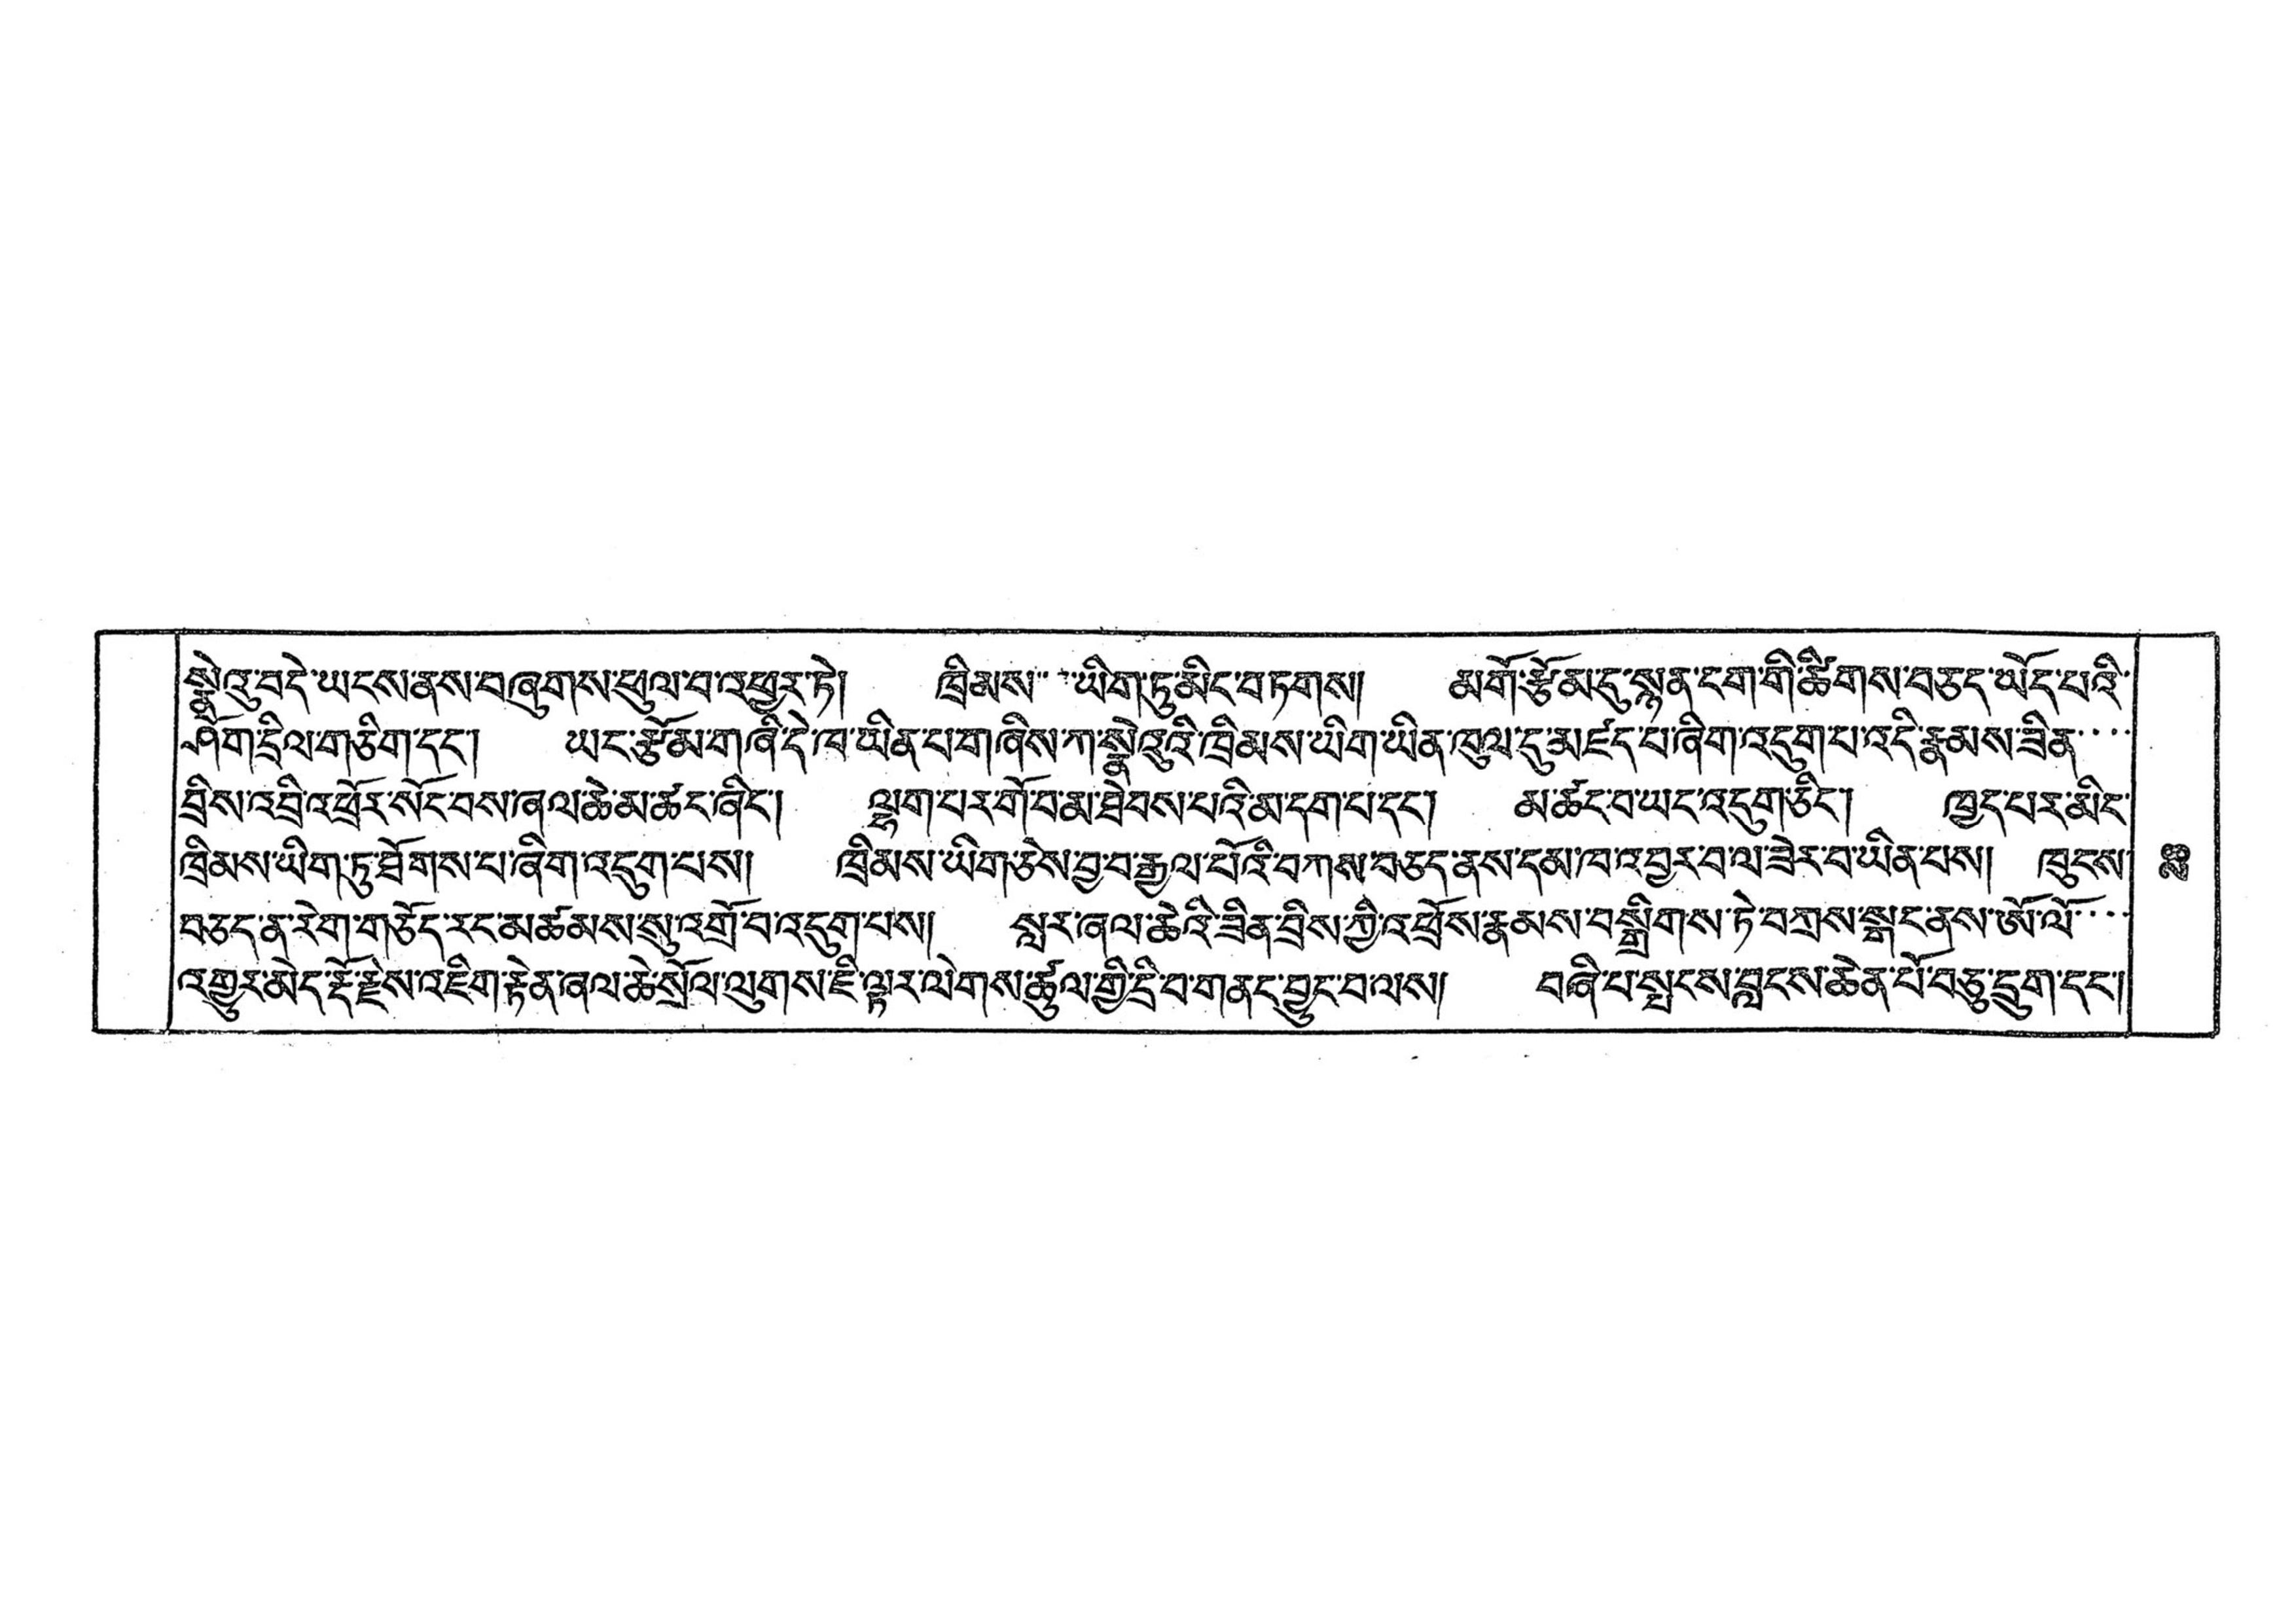སྣེའུ་བདེ་ཡངས་ནས་བཞུགས་ཕུལ་བ་འཕྱར་ཏེ། ཁྲིམས་་་ཡིག་ཏུ་མིང་བཏགས། མགོ་རྩོམ་དུ་སྙན་ངག་གི་ཚིགས་བཅད་ཡོད་པའི་
ཤོག་དྲིལ་གཅིག་དང་། ཡང་རྩོམ་གཞི་དེ་ཁ་ཡིན་པ་གཞིས་ཀ་སྣེའུའི་ཁྲིམས་ཡིག་ཡིན་ཁུལ་དུ་མཛད་པ་ཞིག་འདུག་པ་འདི་རྣམས་ཟིན་་་
བྲིས་འབྲི་འཕྲོར་སོང་བས་ཞལ་ཆེ་མ་ཚང་ཞིང་། ལྷག་པར་གོ་བ་མ་ཐེབས་པའི་མ་དག་པ་དང་། མ་ཚང་བ་ཡང་འདུག་ཅིང་། ཁྱད་པར་མིང་
ཁྲིམས་ཡིག་ཏུ་ཐོགས་པ་ཞིག་འདུག་པས། ཁྲིམས་ཡིག་ཅེས་བྱ་བ་རྒྱལ་པོའི་བཀས་བཅད་ནས་དམ་ཁ་འབྱར་བ་ལ་ཟེར་བ་ཡིན་པས། ཁུངས་
བཅད་ན་རེག་གཅོད་རང་མཚམས་སུ་འགྲོ་བ་འདུག་པས། སླར་ཞལ་ཆེའི་ཟིན་བྲིས་ཀྱི་འཕྲོས་རྣམས་བསྒྲིགས་ཏེ་བཀྲས་སྒང་ནས་ཨོ་ལོ་་་
འགྱུར་མེད་རྡོ་རྗེས་འཇིག་རྟེན་ཞལ་ཆེ་སྲོལ་ལུགས་ཇི་ལྟར་ལེགས་ཚུལ་གྱི་དྲི་བ་གནད་བྱུང་བ་ལས། བཞི་པ་སྤངས་བླངས་ཆེན་པོ་བཅུ་དྲུག་དང་།
